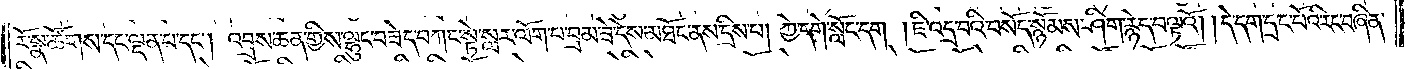རོ་སྣ་ཚོགས་དང་ལྡན་པ་དང༌། འབྲས་ཆན་གྱིས་ལྷུང་བཟེད་བཀང་སྟེ་སླར་ལོག་པ་བྲམ་ཟེ་དེས་མཐོང་ནས་དྲིས་པ། ཀྱེ་དགེ་སློང་དག །ཇི་འདྲ་བའི་བསོད་སྙོམས་ཤིག་རྙེད་བལྟའོ། །དེ་དག་དྲང་པོའི་རང་བཞིན་
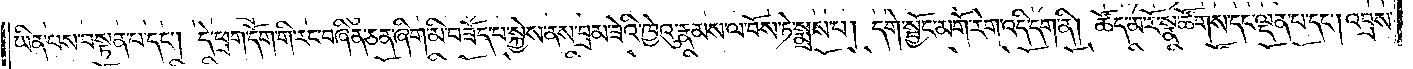ཡིན་པས་བསྟན་པ་དང༌། དེ་ཕྲག་དོག་གི་རང་བཞིན་ཅན་ཞིག་མི་བཟོད་པ་སྐྱེས་ནས་བྲམ་ཟེའི་ཁྱེའུ་རྣམས་ལ་བོས་ཏེ་སྨྲས་པ། དགེ་སྦྱོང་མགོ་རེག་འདི་དག་ནི། ཚོད་མ་རོ་སྣ་ཚོགས་དང་ལྡན་པ་དང༌། འབྲས་
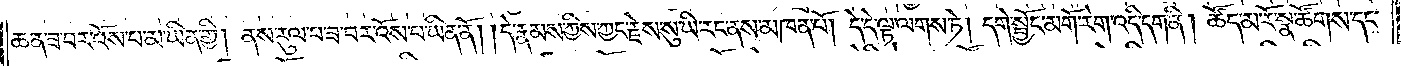ཆན་ཟ་བར་འོས་པ་མ་ཡིན་གྱི། ནས་རུལ་པ་ཟ་བར་འོས་པ་ཡིན་ནོ། །དེ་རྣམས་ཀྱིས་ཀྱང་རྗེས་སུ་ཡི་རང་ནས་མཁན་པོ། དེ་དེ་ལྟ་ལགས་ཏེ། དགེ་སྦྱོང་མགོ་རེག་འདི་དག་ནི། ཚོད་མ་རོ་སྣ་ཚོགས་དང་
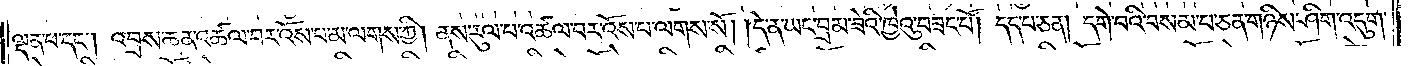ལྡན་པ་དང༌། འབྲས་ཆན་འཚལ་བར་འོས་པ་མ་ལགས་ཀྱི། ནས་རུལ་པ་འཚལ་བར་འོས་པ་ལགས་སོ། །དེ་ན་ཡང་བྲམ་ཟེའི་ཁྱེའུ་བཟང་པོ། དད་པ་ཅན། དགེ་བའི་བསམ་པ་ཅན་གཉིས་ཤིག་འདུག་
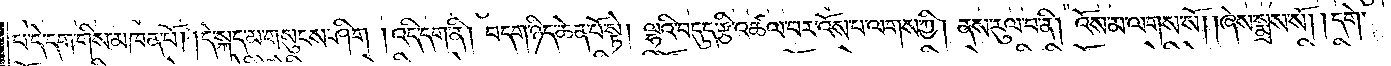པ་དེ་དག་གིས་མཁན་པོ། །དེ་སྐད་མ་གསུངས་ཤིག །འདི་དག་ནི། བདག་ཉིད་ཆེན་པོ་སྟེ། ལྷའི་བདུད་རྩི་འཚལ་བར་འོས་པ་ལགས་ཀྱི། ནས་རུལ་བ་ནི། འོས་མ་ལགས་སོ། །ཞེས་སྨྲས་སོ། །དགེ་
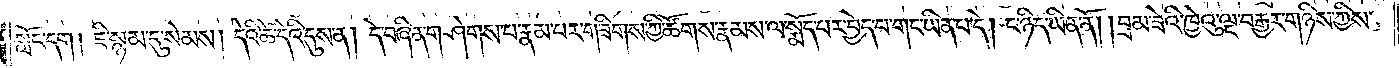སློང་དག །ཇི་སྙམ་དུ་སེམས། དེའི་ཚེ་དེའི་དུས་ན། དེ་བཞིན་གཤེགས་པ་རྣམ་པར་གཟིགས་ཀྱི་ཚོགས་རྣམས་ལ་སྨོད་པར་བྱེད་པ་གང་ཡིན་པ་དེ། ང་ཉིད་ཡིན་ནོ། །བྲམ་ཟེའི་ཁྱེའུ་ལྔ་བརྒྱར་གཉིས་ཀྱིས་
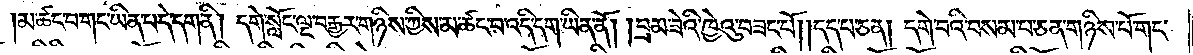།མ་ཚང་བ་གང་ཡིན་པ་དེ་དག་ནི། དགེ་སློང་ལྔ་བརྒྱར་གཉིས་ཀྱིས་མ་ཚང་བ་འདི་དག་ཡིན་ནོ། །བྲམ་ཟེའི་ཁྱེའུ་བཟང་པོ། །དད་པ་ཅན། དགེ་བའི་བསམ་པ་ཅན་གཉིས་པོ་གང་
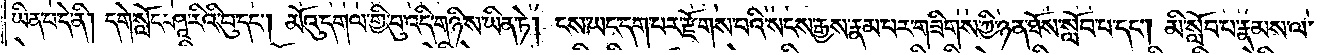ཡིན་པ་དེ་ནི། དགེ་སློང་ཤཱ་རིའི་བུ་དང༌། མོའུ་དགལ་གྱི་བུ་འདི་གཉིས་ཡིན་ཏེ། ངས་ཡང་དག་པར་རྫོགས་པའི་སངས་རྒྱས་རྣམ་པར་གཟིགས་ཀྱི་ཉན་ཐོས་སློབ་པ་དང༌། མི་སློབ་པ་རྣམས་ལ་
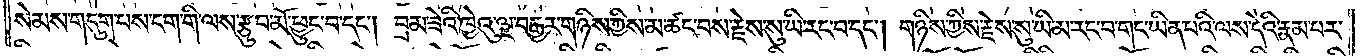སེམས་གདུག་པས་ངག་གི་ལས་རྩུབ་མོ་ཕྱུང་བ་དང༌། བྲམ་ཟེའི་ཁྱེའུ་ལྔ་བརྒྱར་གཉིས་ཀྱིས་མ་ཚང་བས་རྗེས་སུ་ཡི་རང་བ་དང༌། གཉིས་ཀྱིས་རྗེས་སུ་ཡི་མ་རང་བ་གང་ཡིན་པའི་ལས་དེའི་རྣམ་པར་
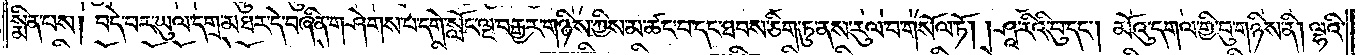སྨིན་པས། བདེ་བར་ཡུལ་དགྲ་མཐར་དེ་བཞིན་གཤེགས་པ་དགེ་སློང་ལྔ་བརྒྱར་གཉིས་ཀྱིས་མ་ཚང་བ་དང་ཐབས་ཅིག་ཏུ་ནས་རུལ་བ་གསོལ་ཏོ། །ཤཱ་རིའི་བུ་དང༌། མོའུ་དགལ་གྱི་བུ་གཉིས་ནི། ལྷའི་
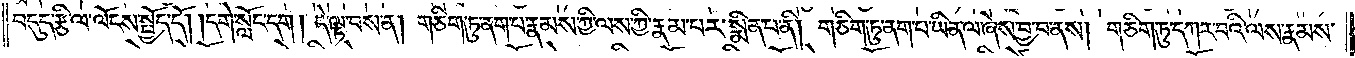བདུད་རྩི་ལ་ལོངས་སྤྱོད་དོ། །དགེ་སློང་དག །དེ་ལྟ་བས་ན། གཅིག་ཏུ་ནག་པ་རྣམས་ཀྱི་ལས་ཀྱི་རྣམ་པར་སྨིན་པ་ནི། གཅིག་ཏུ་ནག་པ་ཡིན་ལ་ཞེས་བྱ་བ་ནས། གཅིག་ཏུ་དཀར་བའི་ལས་རྣམས་
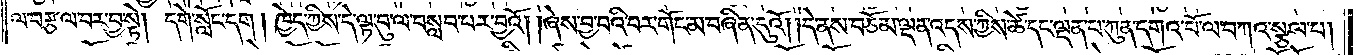ལ་བརྩལ་བར་བྱ་སྟེ། དགེ་སློང་དག །ཁྱེད་ཀྱིས་དེ་ལྟ་བུ་ལ་བསླབ་པར་བྱའོ། །ཞེས་བྱ་བའི་བར་གོང་མ་བཞིན་དུའོ། །དེ་ནས་བཅོམ་ལྡན་འདས་ཀྱིས་ཚེ་དང་ལྡན་པ་ཀུན་དགའ་བོ་ལ་བཀའ་སྩལ་པ།
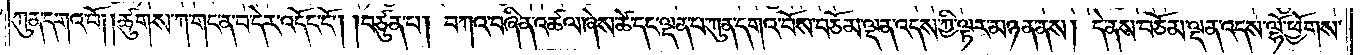ཀུན་དགའ་བོ། །ཚུགས་ཀ་གང་ན་བ་དེར་འདོང་ངོ༌། །བཙུན་པ། བཀའ་བཞིན་འཚལ་ཞེས་ཚེ་དང་ལྡན་པ་ཀུན་དགའ་བོས་བཅོམ་ལྡན་འདས་ཀྱི་ལྟར་མཉན་ནས། དེ་ནས་བཅོམ་ལྡན་འདས་ལྷོ་ཕྱོགས་
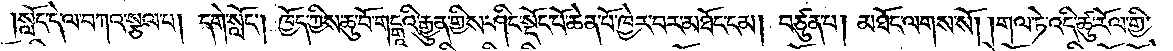།སློང་དེ་ལ་བཀའ་སྩལ་པ། དགེ་སློང༌། ཁྱོད་ཀྱིས་ཆུ་བོ་གངྒཱའི་རྒྱུན་གྱིས་ཤིང་སྡོང་པོ་ཆེན་པོ་ཁྱེར་བར་མཐོང་ངམ། བཙུན་པ། མཐོང་ལགས་སོ། །གལ་ཏེ་འདི་ཚུ་རོལ་གྱི་
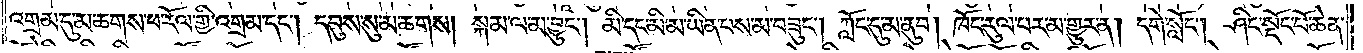འགྲམ་དུ་མ་ཆགས་ཕ་རོལ་གྱི་འགྲམ་དང༌། དབུས་སུ་མ་ཆགས། སྐམ་ལ་མ་བྱུང༌། མི་དང་མི་མ་ཡིན་པས་མ་བཟུང༌། ཀློང་དུ་མ་ནུབ། ཁོང་རུལ་པར་མ་གྱུར་ན། དགེ་སློང༌། ཤིང་སྡོང་པོ་ཆེན་
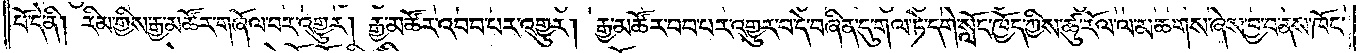པོ་དེ་ནི། རིམ་གྱིས་རྒྱ་མཚོར་གཞོལ་བར་འགྱུར། རྒྱ་མཚོར་འབབ་པར་འགྱུར། རྒྱ་མཚོར་བབ་པར་འགྱུར་བ་དེ་བཞིན་དུ་གལ་ཏེ་དགེ་སློང་ཁྱོད་ཀྱིས་ཚུ་རོལ་ལ་མ་ཆགས་ཞེས་བྱ་བ་ནས་ཁོང་
